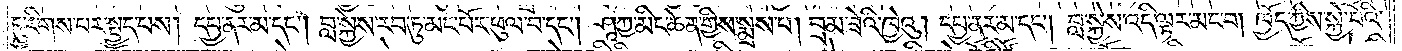དུ་རིགས་པར་སྤྱད་པས། དཔྱ་ནར་མ་དང༌། བླ་སྐྱེས་རབ་ཏུ་མང་པོར་ཕུལ་བ་དང༌། ཤཱཀྱ་མིང་ཆེན་གྱིས་སྨྲས་པ། བྲམ་ཟེའི་ཁྱེའུ། དཔྱ་ནར་མ་དང༌། བླ་སྐྱེས་འདི་ལྟར་མང་བ། ཁྱོད་ཀྱིས་སྐྱེ་བོའི་
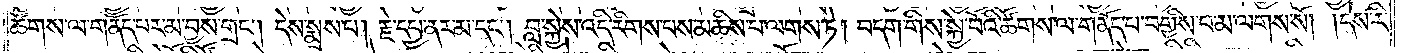ཚོགས་ལ་གནོད་པར་མ་བྱས་གྲང༌། དེས་སྨྲས་པ། རྗེ་དཔྱ་ནར་མ་དང༌། བླ་སྐྱེས་འདི་རིགས་པས་མཆིས་པ་ལགས་ཏེ། བདག་གིས་སྐྱེ་བོའི་ཚོགས་ལ་གནོད་པ་བགྱིས་པ་མ་ལགས་སོ། །དེས་རི་
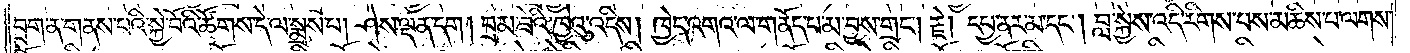བྲག་ན་གནས་པའི་སྐྱེ་བོའི་ཚོགས་དེ་ལ་སྨྲས་པ། ཤེས་ལྡན་དག །བྲམ་ཟེའི་ཁྱེའུ་འདིས། ཁྱེད་འགའ་ལ་གནོད་པ་མ་བྱས་གྲང༌། རྗེ། དཔྱ་ནར་མ་དང༌། བླ་སྐྱེས་འདི་རིགས་པས་མཆིས་པ་ལགས་
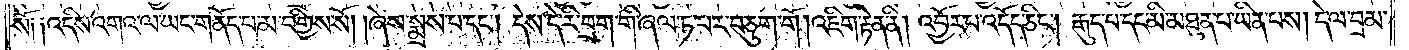སོ༑ ༑འདིས་འགའ་ལ་ཡང་གནོད་པ་མ་བགྱིས་སོ། །ཞེས་སྨྲས་པ་དང༌། དེས་དེ་རི་བྲག་གི་ཞལ་ཏ་པར་བཅུག་གོ། །འཇིག་རྟེན་ནི། འབྱོར་པ་འདོད་ཅིང༌། རྒུད་པ་དང་མི་མཐུན་པ་ཡིན་པས། དེ་ལ་བྲམ་
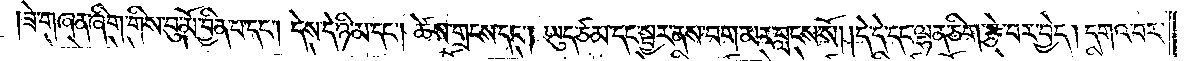ཟེ་གཞན་ཞིག་གིས་བུ་མོ་བྱིན་པ་དང༌། དེས་དེ་ཉི་མ་དང༌། ཚེས་གྲངས་དང༌། ཡུད་ཙམ་དང་སྦྱར་ནས་བག་མར་བླངས་སོ། །དེ་དེ་དང་ལྷན་ཅིག་རྩེ་བར་བྱེད། དགའ་བར་
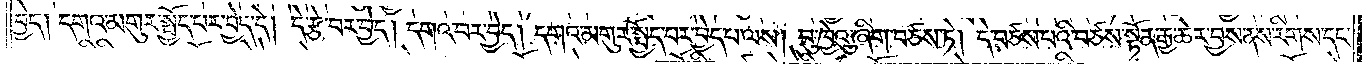བྱེད། དགའ་མགུར་སྤྱོད་པར་བྱེད་དེ། དེ་རྩེ་བར་བྱེད། དགའ་བར་བྱེད། དགའ་མགུར་སྤྱོད་པར་བྱེད་པ་ལས། བུ་ཁྱེའུ་ཞིག་བཙས་ཏེ། དེ་བཙས་པའི་བཙས་སྟོན་རྒྱ་ཆེར་བྱས་ནས་རིགས་དང་
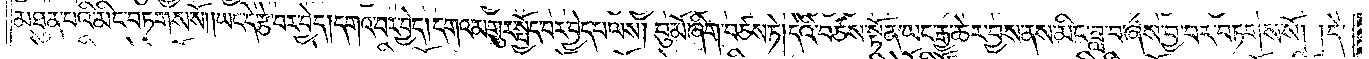མཐུན་པའི་མིང་བཏགས་སོ། །ཡང་དེ་རྩེ་བར་བྱེད། དགའ་བར་བྱེད། དགའ་མགུར་སྤྱོད་པར་བྱེད་པ་ལས། བུ་མོ་ཞིག་བཙས་ཏེ། དེའི་བཙས་སྟོན་ཡང་རྒྱ་ཆེར་བྱས་ནས་མིང་ཟླ་བ་ཞེས་བྱ་བར་བཏགས་སོ། །དེ་
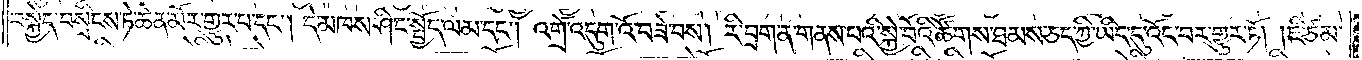བསྐྱེད་བསྲིངས་ཏེ་ཆེན་མོར་གྱུར་པ་དང༌། དེ་མཁས་ཤིང་སྤྱོད་ལམ་དང༌། འགྲོ་འདུག་འོ་བཟེ་བས། རི་བྲག་ན་གནས་པའི་སྐྱེ་བོའི་ཚོགས་ཐམས་ཅད་ཀྱི་ཡིད་དུ་འོང་བར་གྱུར་ཏོ། །ཇི་ཙམ་
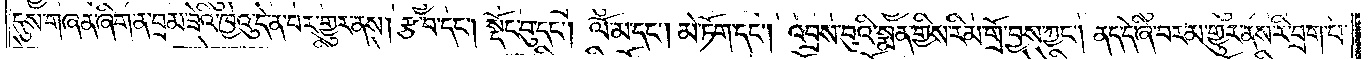དུས་གཞན་ཞིག་ན་བྲམ་ཟེའི་ཁྱེའུ་དེ་ན་བར་གྱུར་ནས། རྩ་བ་དང༌། སྡོང་བུ་དང༌། ལོ་མ་དང༌། མེ་ཏོག་དང༌། འབྲས་བུའི་སྨན་གྱིས་རིམ་གྲོ་བྱས་ཀྱང༌། ནད་དེ་ཞི་བར་མ་གྱུར་ནས་རི་བྲག་པ་
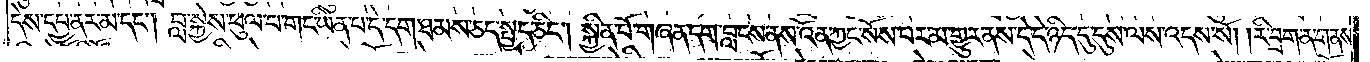དེས་དཔྱ་ནར་མ་དང༌། བླ་སྐྱེས་ཕུལ་བ་གང་ཡིན་པ་དེ་དག་ཐམས་ཅད་སྤྱད་ཅིང༌། སྐྱིན་པོ་གཞན་དག་བླངས་ནས་འོན་ཀྱང་སོས་པར་མ་གྱུར་ནས་དེ་དེ་ཉིད་དུ་དུས་ལས་འདས་སོ། །རི་བྲག་ན་གནས་
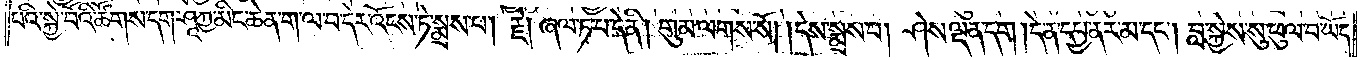པའི་སྐྱེ་བོའི་ཚོགས་དག་ཤཱཀྱ་མིང་ཆེན་ག་ལ་བ་དེར་འོངས་ཏེ་སྨྲས་པ། རྗེ། ཞལ་ཏ་པ་དེ་ནི། གུམ་ལགས་སོ། །དེས་སྨྲས་པ། ཤེས་ལྡན་དག །དེ་ན་དཔྱ་ནར་མ་དང༌། བླ་སྐྱེས་སུ་ཕུལ་བ་ཡོད་
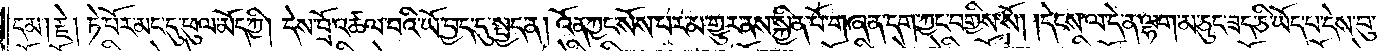དམ། རྗེ། ཏེ་པོར་མང་དུ་ཕུལ་མོད་ཀྱི། དེས་བྲོ་འཚལ་བའི་ཡོ་བྱད་དུ་སྤྱད་ན། འོན་ཀྱང་སོས་པར་མ་གྱུར་ནས་སྐྱིན་པོ་གཞན་དག་ཀྱང་བགྱིས་སོ། །དེངས་ལ་དེ་ན་ལྷག་མ་ཅུང་ཟད་ཅི་ཡོད་པ་དེས་བུ་
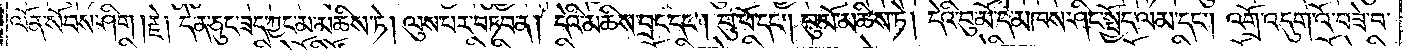ལོན་སོབས་ཤིག །རྗེ། དེ་ན་ཅུང་ཟད་ཀྱང་མ་མཆིས་ཏེ། ལུས་པར་བཏབ་ན། དེའི་མཆིས་བྲང་དང༌། བུ་ཕོ་དང༌། བུ་མོ་མཆིས་ཏེ། དེའི་བུ་མོ་དེ་མཁས་ཤིང་སྤྱོད་ལམ་དང༌། འགྲོ་འདུག་འོ་བཟེ་བ་
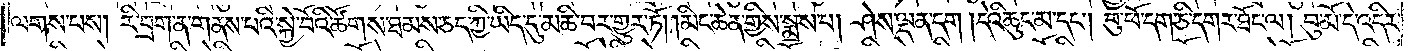ལགས་པས། རི་བྲག་ན་གནས་པའི་སྐྱེ་བོའི་ཚོགས་ཐམས་ཅད་ཀྱི་ཡིད་དུ་མཆི་བར་གྱུར་ཏོ། །མིང་ཆེན་གྱི་སྨྲས་པ། ཤེས་ལྡན་དག །དེའི་ཆུང་མ་དང༌། བུ་ཕོ་དག་ཅི་དགར་ཐོང་ལ། བུ་མོ་དེ་འདིར་
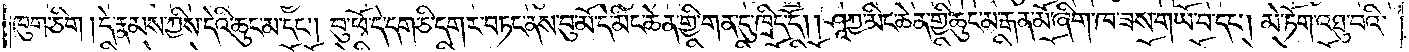ཁུག་ཅིག །དེ་རྣམས་ཀྱིས་དེའི་ཆུང་མ་དང༌། བུ་ཕོ་དེ་དག་ཅི་དགར་བཏང་ནས་བུ་མོ་དེ་མིང་ཆེན་གྱི་གན་དུ་ཁྲིད་དོ། །ཤཱཀྱ་མིང་ཆེན་གྱི་ཆུང་མ་རྒན་མོ་ཞིག་ཁ་ཟས་གཡོ་བ་དང༌། མེ་ཏོག་འཐུ་བའི་
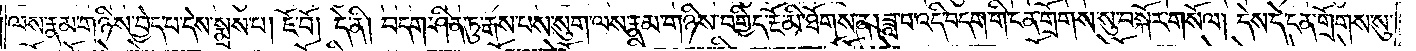ལས་རྣམ་གཉིས་བྱེད་པ་དེས་སྨྲས་པ། ཇོ་བོ། དེ་ནི། བདག་ཤིན་ཏུ་རྒས་པས་སུག་ལས་རྣམ་གཉིས་བགྱིད་རྔོ་མི་ཐོགས་ན། ཟླ་བ་འདི་བདག་གི་ངན་གྲོགས་སུ་བསྐོར་གསོལ། དེས་དེ་ངན་གྲོགས་སུ་
